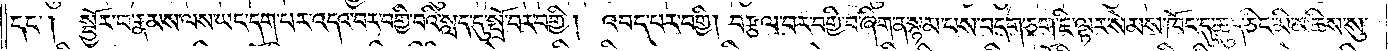དང༌། སྦྱོར་བ་རྣམས་ལས་ཡང་དག་པར་འདའ་བར་བགྱི་བའི་སླད་དུ་སྤྲོ་བར་བགྱི། འབད་པར་བགྱི། བརྩལ་བར་བགྱི་བ་ཞིག་ན་སྙམ་པས་བདག་ཅག་ཇི་ལྟར་སེམས་ཁོང་དུ་ཆུད་ཅིང་མི་མཆིས་སུ་
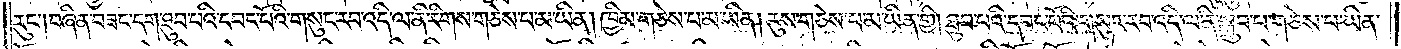རུང༌། བཞིན་བཟང་དག་ཐུབ་པའི་དབང་པོའི་གསུང་རབ་འདི་ལ་ནི་རིགས་གཅེས་པ་མ་ཡིན། ཁྱིམ་གཅེས་པ་མ་ཡིན། རུས་གཅེས་པ་མ་ཡིན་གྱི། ཐུབ་པའི་དབང་པོའི་གསུང་རབ་འདི་ལ་ནི་སྒྲུབ་པ་གཅེས་པ་ཡིན་
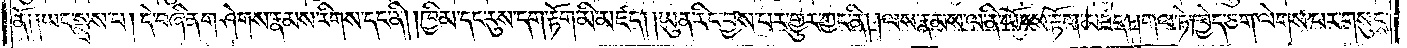ནོ༑ ༑ཡང་སྨྲས་པ། དེ་བཞིན་གཤེགས་རྣམས་རིགས་དང་ནི། །ཁྱིམ་དང་རུས་དག་རྟོག་མི་མཛད། །ཡུན་རིང་བྱས་པར་གྱུར་ཀྱང་ནི། །ལས་རྣམས་ལ་ནི་ཡོངས་རྟོག་མཛད། །གལ་ཏེ་ཁྱེད་ཅག་ལེགས་པར་གསུངས་
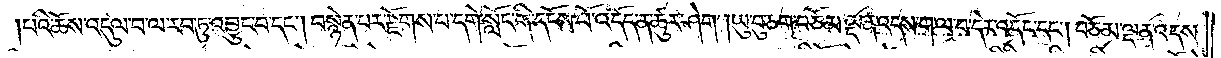པའི་ཆོས་འདུལ་བ་ལ་རབ་ཏུ་འབྱུང་བ་དང༌། བསྙེན་པར་རྫོགས་པ་དགེ་སློང་གི་དངོས་པོ་འདོད་ན་ཚུར་ཤེག །ཡུ་བུ་ཅག་བཅོམ་ལྡན་འདས་ག་ལ་བ་དེར་འདོང་དང༌། བཅོམ་ལྡན་འདས་
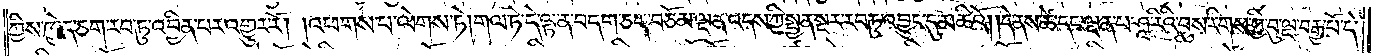ཀྱིས་ཁྱེད་ཅག་རབ་ཏུ་འབྱིན་པར་འགྱུར་རོ། །འཕགས་པ་ལེགས་ཏེ། གལ་ཏེ་དེ་ལྟ་ན་བདག་ཅག་བཅོམ་ལྡན་འདས་ཀྱི་སྤྱན་སྔར་རབ་ཏུ་འབྱུང་དུ་མཆིའོ། །དེ་ནས་ཚེ་དང་ལྡན་པ་ཤཱ་རིའི་བུས་རིགས་ཀྱི་བུ་ལྔ་བརྒྱ་པོ་དེ་
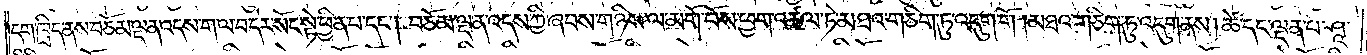དག་ཁྲིད་ནས་བཅོམ་ལྡན་འདས་ག་ལ་བ་དེར་སོང་སྟེ་ཕྱིན་པ་དང༌། བཅོམ་ལྡན་འདས་ཀྱི་ཞབས་གཉིས་ལ་མགོ་བོས་ཕྱག་འཚལ་ཏེ་མཐའ་གཅིག་ཏུ་འདུག་གོ །མཐའ་གཅིག་ཏུ་འདུག་ནས། ཚེ་དང་ལྡན་པ་ཤཱ་
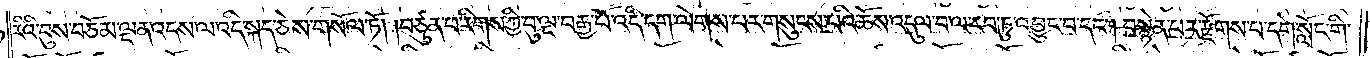རིའི་བུས་བཅོམ་ལྡན་འདས་ལ་འདི་སྐད་ཅེས་གསོལ་ཏོ། །བཙུན་པ་རིགས་ཀྱི་བུ་ལྔ་བརྒྱ་པོ་འདི་དག་ལེགས་པར་གསུངས་པའི་ཆོས་འདུལ་བ་ལ་རབ་ཏུ་འབྱུང་བ་དང༌། བསྙེན་པར་རྫོགས་པ་དགེ་སློང་གི་
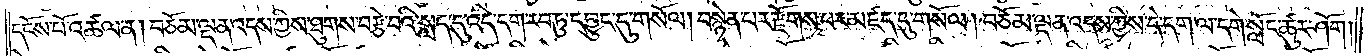དངོས་པོ་འཚལ་ན། བཅོམ་ལྡན་འདས་ཀྱིས་ཐུགས་བརྩེ་བའི་སླད་དུ་འདི་དག་རབ་ཏུ་དབྱུང་དུ་གསོལ། བསྙེན་པར་རྫོགས་པར་མཛད་དུ་གསོལ། བཅོམ་ལྡན་འདས་ཀྱིས་དེ་དག་ལ་དགེ་སློང་ཚུར་ཤོག །
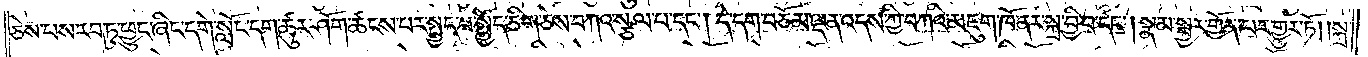ཅེས་པས་རབ་ཏུ་ཕྱུང་ཞིང་དགེ་སློང་དག་ཚུར་ཤོག་ཚངས་པར་སྤྱད་པ་སྤྱོད་ཅིག་ཅེས་བཀའ་སྩལ་པ་དང༌། དེ་དག་བཅོམ་ལྡན་འདས་ཀྱི་བཀའི་མཇུག་ཁོ་ནར་སྐྲ་བྱི་བ་དང༌། སྣམ་སྦྱར་གྱོན་པར་གྱུར་ཏོ། །སྐྲ་
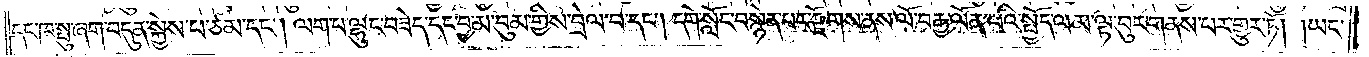དང་ཁ་སྤུ་ཞག་བདུན་སྐྱེས་པ་ཙམ་དང༌། ལག་པ་ལྷུང་བཟེད་དང་བྱ་མ་བུམ་གྱིས་བྲེལ་བ་དང༌། དགེ་སློང་བསྙེན་པར་རྫོགས་ནས་ལོ་བརྒྱ་ལོན་པའི་སྤྱོད་ལམ་ལྟ་བུར་གནས་པར་གྱུར་ཏོ། །ཡང་
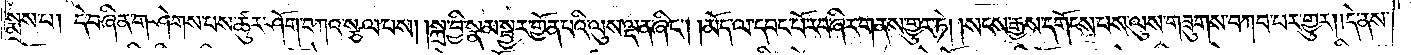སྨྲས་པ། དེ་བཞིན་གཤེགས་པས་ཚུར་ཤོག་བཀའ་སྩལ་པས། །སྐྲ་བྱི་སྣམ་སྦྱར་གྱོན་པའི་ལུས་ལྡན་ཞིང༌། །མོད་ལ་དབང་པོ་རབ་ཞིར་གནས་གྱུར་ཏེ། །སངས་རྒྱས་དགོངས་པས་ལུས་གཟུགས་བཀབ་པར་གྱུར། །དེ་ནས་
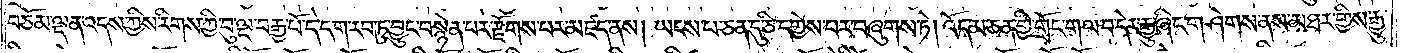བཅོམ་ལྡན་འདས་ཀྱིས་རིགས་ཀྱི་བུ་ལྔ་བརྒྱ་པོ་དེ་དག་རབ་ཏུ་བྱུང་བསྙེན་པར་རྫོགས་པར་མཛད་ནས། ཡངས་པ་ཅན་དུ་ཅི་དགྱེས་པར་བཞུགས་ཏེ། འོད་མ་ཅན་གྱི་གྲོང་ག་ལ་བ་དེར་རྒྱུ་ཞིང་གཤེགས་ནས་མཐར་གྱིས་རྒྱུ་
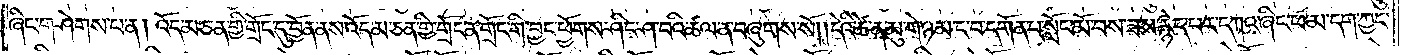ཞིང་གཤེགས་པ་ན། འོད་མ་ཅན་གྱི་གྲོང་དུ་བྱོན་ནས་འོད་མ་ཅན་གྱི་གྲོང་ན་གྲོང་གི་བྱང་ཕྱོགས་ཤིང་ཤ་བའི་ཚལ་ན་བཞུགས་སོ། །དེའི་ཚེ་ན་མུ་གེ་ཉམ་ང་བ་དགོན་པ་སློང་མོ་བས་ཟས་རྙེད་པར་དཀའ་ཞིང་ཕ་མ་དག་ཀྱང་
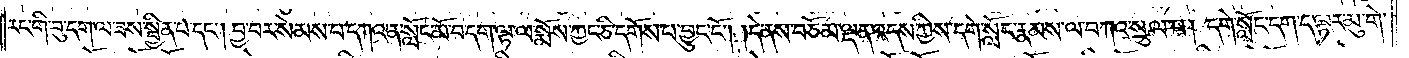རང་གི་བུ་དག་ལ་ཟས་སྦྱིན་པ་དང༌། བྱ་བར་སེམས་པ་དཀའ་ན་སློང་མོ་བ་དག་ལྟ་ལ་སྨོས་ཀྱང་ཅི་དགོས་པ་བྱུང་ངོ༌། །དེ་ནས་བཅོམ་ལྡན་འདས་ཀྱིས་དགེ་སློང་རྣམས་ལ་བཀའ་སྩལ་པ། དགེ་སློང་དག་ད་ལྟར་མུ་གེ་
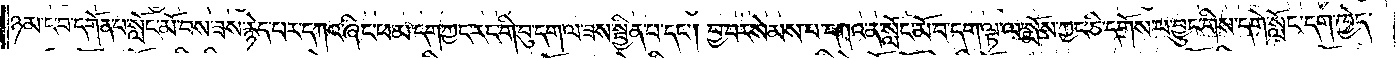ཉམ་ང་བ་དགོན་པ་སློང་མོ་བས་ཟས་རྙེད་པར་དཀའ་ཞིང་ཕ་མ་དག་ཀྱང་རང་གི་བུ་དག་ལ་ཟས་སྦྱིན་པ་དང༌། བྱ་བར་སེམས་པ་དཀའ་ན་སློང་མོ་བ་དག་ལྟ་ལ་སྨོས་ཀྱང་ཅི་དགོས་པ་བྱུང་གིས་དགེ་སློང་དག་ཁྱེད་
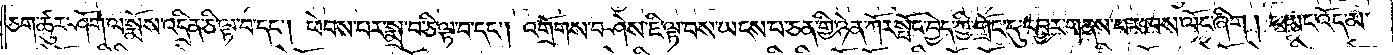ཅག་ཚུར་ཤོག་ལ་སྨོས་འདྲིན་ཅི་ལྟ་བ་དང༌། ཕེབས་པར་སྨྲ་བ་ཅི་ལྟ་བ་དང༌། འགྲོགས་བཤེས་ཇི་ལྟ་བས་ཡངས་པ་ཅན་གྱི་ཉེན་ཀོར་སྤོང་བྱེད་ཀྱི་གྲོང་དུ་དབྱར་གནས་པར་ཁས་ལོང་ཞིག །ང་ཡང་འོད་མ་
